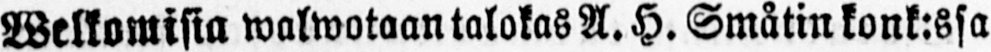Welkomisia walwotaan talokas A. H. Småtin konk:ssa
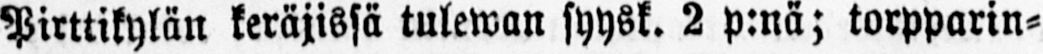Pirttikylän keräjissä tulewan syysk. 2 p:nä; torpparin-
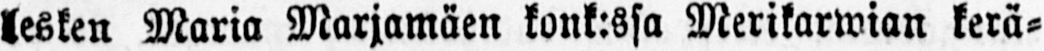lesken Maria Marjamäen konk:ssa Merikarwian kerä-
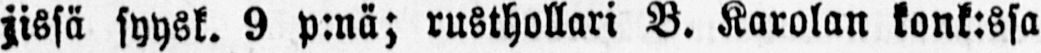jissä syysk. 9 p:nä; rusthollari B. Karolan konk:ssa
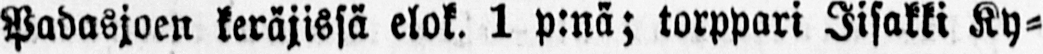Padasjoen keräjissä elok. 1 p:nä; torppari Iisakki Ky-
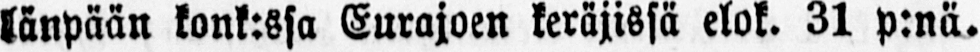länpään konk:ssa Eurajoen keräjissä elok. 31 p:nä.
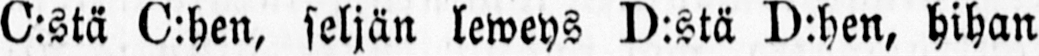C:stä C:hen, seljän leweys D:stä D:hen, hihan
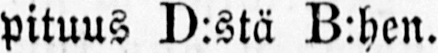pituus D:stä B:hen.
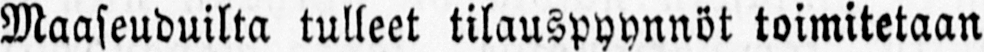Maaseuduilta tulleet tilauspyynnöt toimitetaan
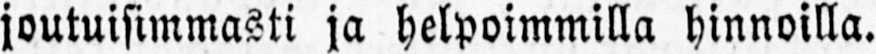joutuisimmasti ja helpoimmilla hinnoilla.
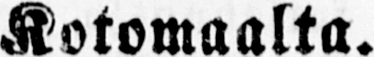Kotomaalta.
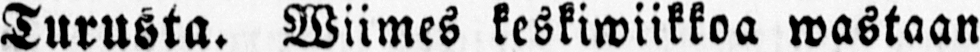Turusta. Wiimes keskiwiikkoa wastaan
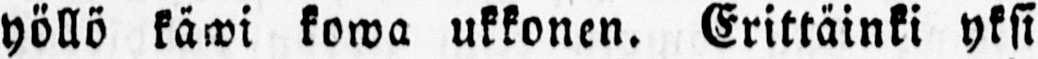yöllö käwi kowa ukkonen. Erittäinki yksi
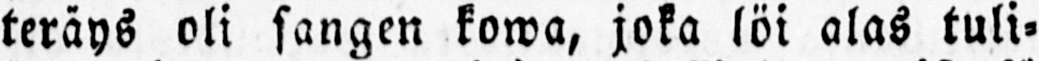teräys oli sangen kowa, joka löi alas tuli-
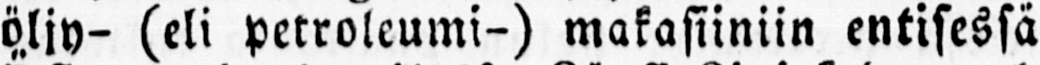öljy- (eli petroleumi-) makasiiniin entisessä
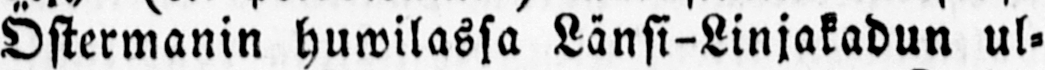Östermanin huwilassa Länsi-Linjakadun ul-
